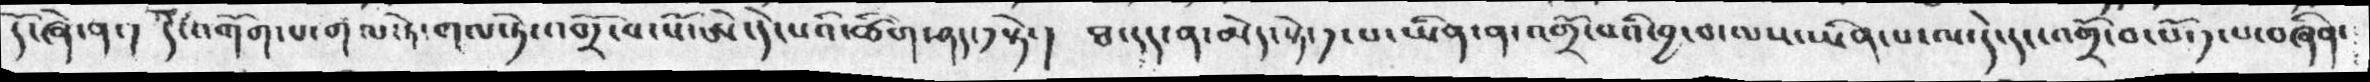དོ་ཞེ་ན་།  དེ་འགོག་པ་གལ་ཏེ་གལ་ཏེ་འགྲོ་བ་པོ་ཨེ་དེ་པའི་ཚིག་ཤད་༡་སྟེ་།  ཐ་དད་ན་མེད་སྟེ་༡་པ་ཡིན་ན་འགྲོ་བའི་བྱ་བ་ལས་ཡིན་པ་ལ་དེ་དང་འགྲོ་བ་པོ་༡་པ་བཞིན་
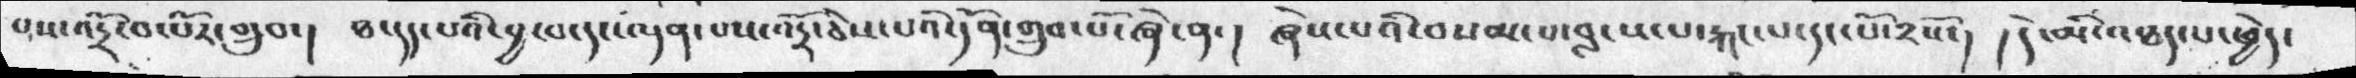པས་འདྲོ་བ་པོར་གྲུབ་།  ཐ་དད་པའི་བྱ་བ་དང་ལྡན་པས་འདྲོ་ཅེས་པའི་དོན་གྲུབ་པོ་ཞེ་ན་།  ཞེས་པའི་བསམ་པ་བླངས་པ་རྐང་པ་དང་པོ་༢སོ་།  །དེ་མི་འཐད་པ་ཕྱེད་
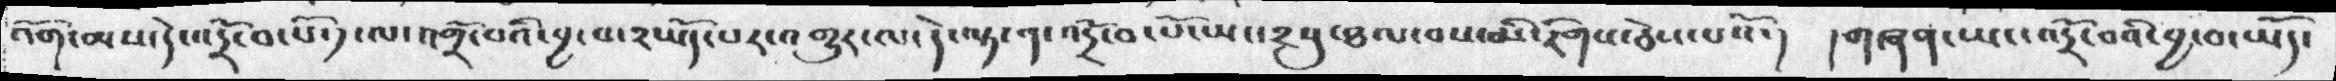འོག་མས་དེ་འདྲོ་བ་པོ་༡་ལ་འགྲོ་བའི་བྱ་བ་༢ཡོད་པར་འགྱུར་ལ་དེ་ལྟ་ན་འདྲོ་བ་པོ་ཡང་༢སུ་ཐལ་བས་མི་རིགས་ཅེས་པའོ་།  །གཞན་ཡང་འདྲོ་བའི་བྱ་བ་ཡོད་
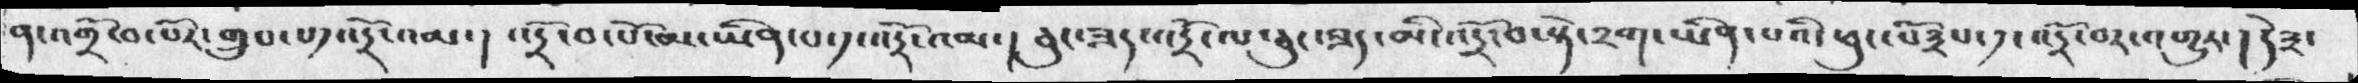ན་འགྲོ་བ་པོར་གྲུབ་པ༡འདྲོ་འམ་།  འདྲོ་བ་པོ་མ་ཡིན་པ་༡་འདྲོ་འམ་། ཅུང་ཟད་འདྲོ་ལ་ཅུང་ཟད་མི་འདྲོ་བ་སྟེ་༢ག་ཡིན་པའི་ཕུང་པོ༣པ་༡་འདྲོ་བར་འགྱུར་། དེ༣་
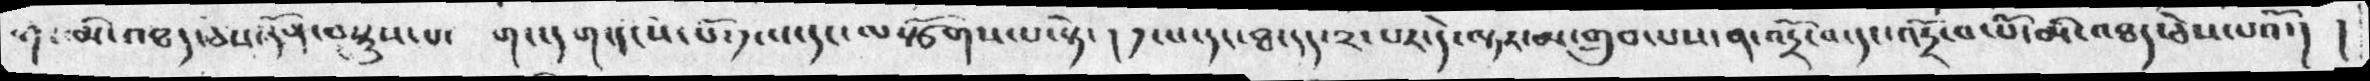གང་མི་འཐད་ཅེས་དོན་བསྡུས་པ་   གང་དག་དངོས་པོ་༡་པ་དང་ལསྩོགས་པ་སྟེ་།  ༡་པ་དང་ཐ་དད་༢་པར་དེ་ལྟར་མ་གྲུབ་པས་ན་འདྲོ་བ་དང་འདྲོ་བ་པོ་མི་འཐད་ཅེས་པའོ་། །
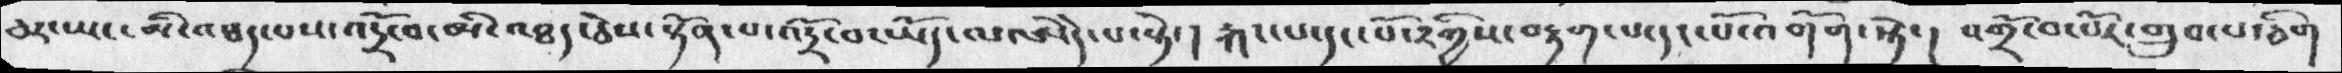ཅར་ཡང་མི་འཐད་པས་འདྲོ་བ་མ་འཐད་ཅེས་སྟོན་པ་འདྲོ་བ་ཡོད་ལ་ཨེདེ་པ་སྟེ་།  རྐང་པ་དང་པོ་༢གྱིས་བརྟག་པ་དང་པོ་འགོག་སྟེ་།  འགྲོ་བ་པོར་གྲུབ་པ་ཅིག
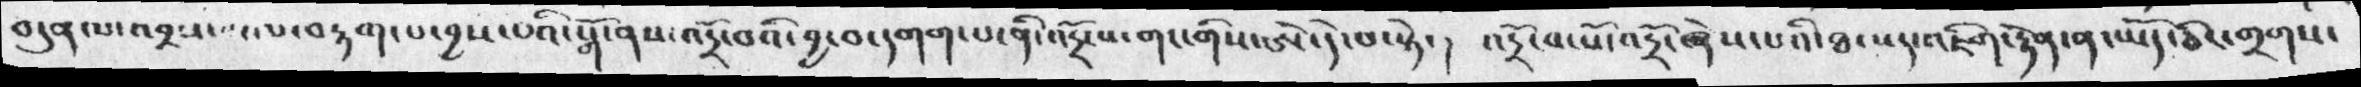བདུན་པ་འབྲས་བུ་ལ་བརྟག་པ་བྱས་པའི་སྒོ་ནས་འདྲོ་བའི་བྱ་བ་དགག་པ་ནི་འདྲོ་པ་གང་གིས་ཨེ་དེ་པ་སྟེ་།  འདྲོ་བ་པོ་འདྲོ་ཞེས་པའི་ཐ་སྙད་འཇིག་རྟེན་ན་ཡོད་ཅིང་གྲགས་
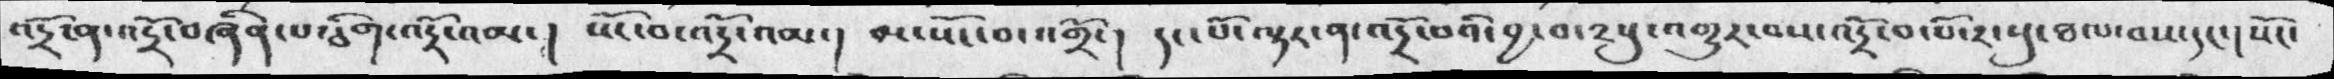འདྲོ་ན་འདྲོ་བཞིན་པ་ཅིག་འདྲོ་འམ་།  སོང་བ་འདྲོ་འམ་། མ་སོང་བ་འགྲོ་།  དང་པོ་ལྟར་ན་འདྲོ་བའི་བྱ་༢སུ་འགྱུར་བས་འདྲོ་བ་པོ་༢་སུ་ཐལ་བས་དང་། སོང་
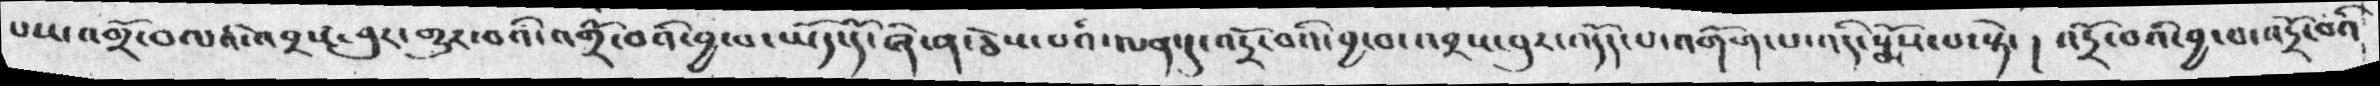པས་འགྲོ་བ་པའི་འབྲས་བུར་གྱུར་བའི་འགྲོ་བའི་བྱ་བ་ཡོད་དོ་ཞེ་ན་ཅེས་པའི་ལན་དུ་འདྲོ་བའི་བྱ་བ་འབྲས་བུར་འདོད་པ་འགོག་པ་འདི་སྨོས་པ་སྟེ་། འདྲོ་བའི་བྱ་བ་འདྲོ་བའི་
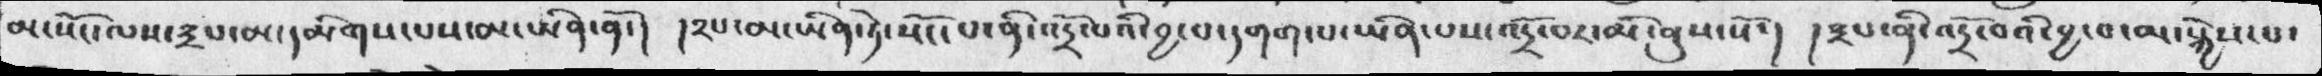མ་སོང་ལས་༣པ་མ་དམིགས་པས་མ་ཡིན་ནོ་། །༢པ་མ་ཡིན་ཏེ་སོང་པ་ནི་འདྲོ་པའི་བྱ་བ་དགག་པ་ཡིན་པས་འདྲོ་པར་མི་ནུས་སོ་།  །༣པ་ནི་འདྲོ་བའི་བྱ་བ་མ་སྐྱེས་པ་
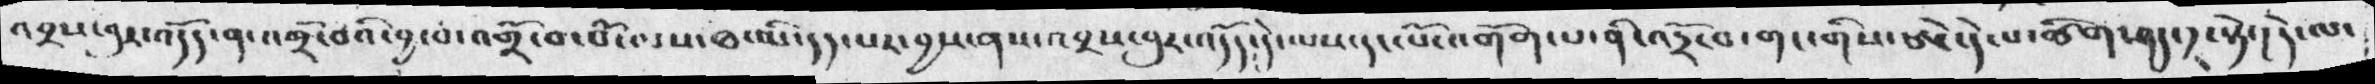འབྲས་བུར་འདོད་ན་འགྲོ་བའི་བྱ་བ་འགྲོ་བ་པོ་ལས་ཐ་དད་པར་བྱས་ནས་འབྲས་བུར་འདོད་དེ་ལས་དང་པོ་འགོག་པ་ནི་འདྲོ་བ་གང་གིས་ཨེ་དེ་པ་ཚིག་ཤད་༡་སྟེ་། དེ་ལ་
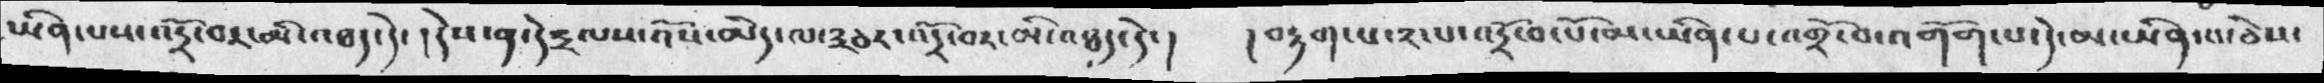ཡིན་པས་འདྲོ་བར་མི་འཐད་དེ་། དེས་ན་དེ༣ལས་འོས་མེད་ལ་༣ཅར་འདྲོ་བར་མི་འཐད་དེ་།   །བརྟག་པ་༢་པ་འདྲོ་བ་པོ་མ་ཡིན་པ་འགྲོ་བ་འགོག་པ་དེ་མ་ཡིན་པ་ཅེས་
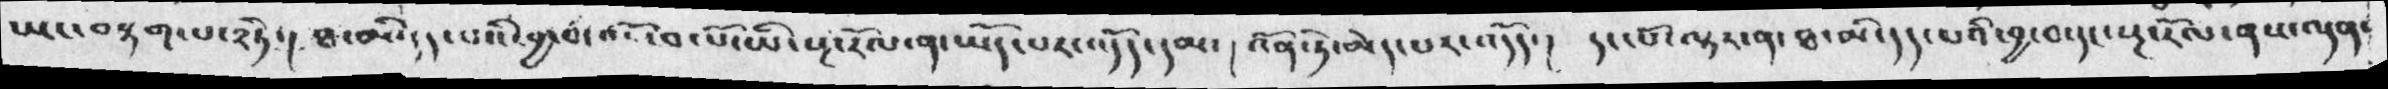ཡང་བརྟག་པ་༢ཏེ་།  ཐ་མི་དད་པའི་བྱ་བ་འགྲོ་བ་པོ་ཡི་སྔ་རོལ་ན་ཡོད་པར་འདོད་དམ་།  འོན་ཏེ་མེད་པར་འདོད་།  དང་པོ་ལྟར་ན་ཐ་མི་དད་པའི་བྱ་བ་དང་སྔ་རོལ་ནས་ལྡན་
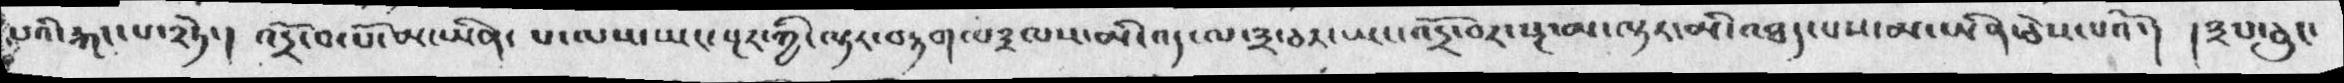པའི་རྐང་པ་༢ཏེ་། འདྲོ་བ་པོ་མ་ཡིན་ པ་ལས་ཡང་སྔར་གྱི་ལྟར་བརྟག་པ༣ལས་མི་འད་ལ་༣བར་ཡང་འདྲོ་བར་སྔ་མ་ལྟར་མི་འཐད་པས་མ་ཡིན་ཅེས་པའོ་།  །༣པ་ཅུང་
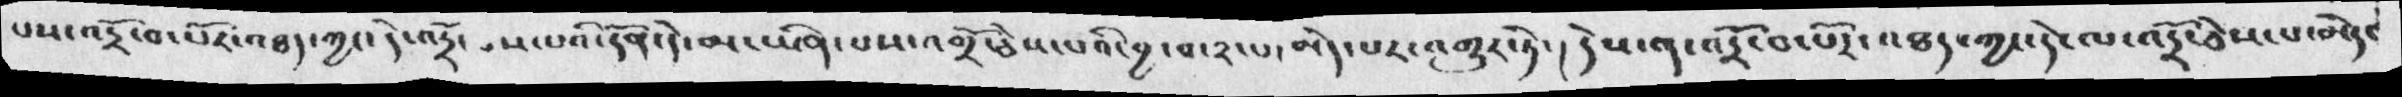པས་འདྲོ་བ་པོར་འཐད་ཀྱང་དེ་འདྲོ་ཅེས་པའི་དོན་དེ་མ་ཡིན་པས་འགྲོ་ཅེས་པའི་བྱ་བ་༢་པ་མེད་པར་འགྱུར་ཏེ་། དེས་ན་འདྲོ་བ་པོར་འཐད་ཀྱང་དེ་ལ་འདྲོ་ཅེས་པ་མེད་
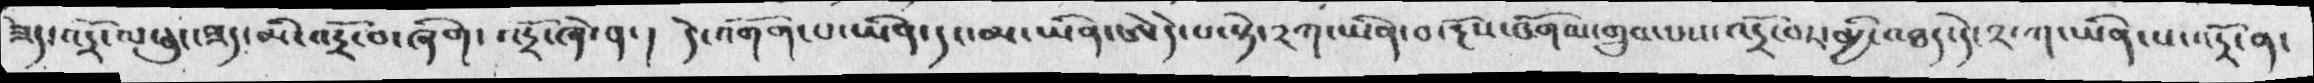ཟད་འདྲོ་ལ་ཅུང་ཟད་མི་འདྲོ་བ་ཞིག་ འདྲོ་ཞེ་ན་ ། དེ་འགོག་པ་ཡིན་དང་མ་ཡིན་ཨེདེ་པ་སྟེ་༢ག་ཡིན་བ་རྔོས་འགལ་གྲུབ་པས་འདྲོ་བར་མྱི་འཐད་དེ་༢་ཀ་ཡིན་པ་འདྲོ་ན་
